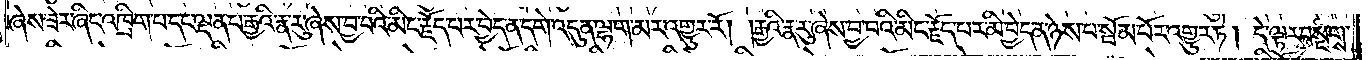ཞེས་ཟེར་ཞིང་འཁྲིག་པ་དང་ལྡན་པ་རྒྱའི་རྣ་རུ་ཞེས་བྱ་བའི་མིང་རྗོད་པར་བྱེད་ན་དགེ་འདུན་ལྷག་མར་འགྱུར་རོ། །རྒྱའི་རྣ་རུ་ཞེས་བྱ་བའི་མིང་རྗོད་པར་མི་བྱེད་ན་ཉེས་པ་སྦོམ་པོར་འགྱུར་ཏེ། དེ་ལྟར་བསྔགས་
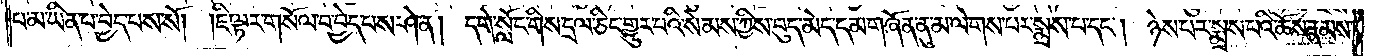པ་མ་ཡིན་པ་བྱེད་པས་སོ། །ཇི་ལྟར་གསོལ་བ་བྱེད་པས་ཤེ་ན། དགེ་སློང་གིས་དྲལ་ཅིང་གྱུར་པའི་སེམས་ཀྱིས་བུད་མེད་དམ་གཞོན་ནུ་མ་ལེགས་པར་སྨྲས་པ་དང༌། ཉེས་པར་སྨྲས་པའི་ཆོས་རྣམས་
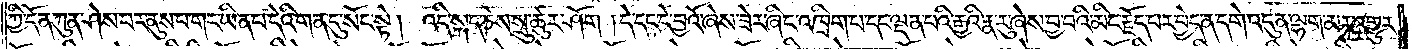ཀྱི་དོན་ཀུན་ཤེས་པར་ནུས་པ་གང་ཡིན་པ་དེའི་གན་དུ་སོང་སྟེ། འདི་སྐད་ཅེས་སྲུ་ཚུར་ཤོག །དེ་དང་དེ་བྱའོ་ཞེས་ཟེར་ཞིང་འཁྲིག་པ་དང་ལྡན་པའི་རྒྱའི་རྣ་རུ་ཞེས་བྱ་བའི་མིང་རྗོད་པར་བྱེད་ན་དགེ་འདུན་ལྷག་མར་འགྱུར་
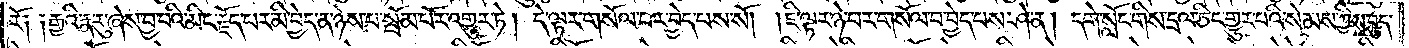རོ༑ ༑རྒྱའི་རྣ་རུ་ཞེས་བྱ་བའི་མིང་རྗོད་པར་མི་བྱེད་ན་ཉེས་པ་སྦོམ་པོར་འགྱུར་ཏེ། དེ་ལྟར་གསོལ་བར་བྱེད་པས་སོ། །ཇི་ལྟར་ཉེ་བར་གསོལ་བ་བྱེད་པས་ཤེ་ན། དགེ་སློང་གིས་དྲལ་ཅིང་གྱུར་པའི་སེམས་ཀྱིས་བུད་
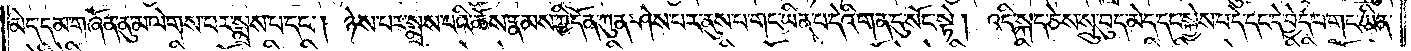མེད་དམ་གཞོན་ནུ་མ་ལེགས་པར་སྨྲས་པ་དང༌། ཉེས་པར་སྨྲས་པའི་ཆོས་རྣམས་ཀྱི་དོན་ཀུན་ཤེས་པར་ནུས་པ་གང་ཡིན་པ་དེའི་གན་དུ་སོང་སྟེ། འདི་སྐད་ཅེས་སྲུ་བུད་མེད་དང་སྐྱེས་པ་དེ་དང་དེ་བྱེད་པ་གང་ཡིན་
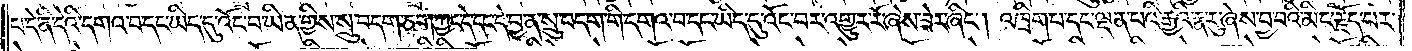པ་དེ་ནི་དེའི་དགའ་བ་དང་ཡིད་དུ་འོང་བ་ཡིན་གྱིས་སྲུ་བདག་ཅག་ཀྱང་དེ་དང་དེ་བྱ་ན་སྲུ་བདག་གི་དགའ་བ་དང་ཡིད་དུ་འོང་བར་འགྱུར་རོ་ཞེས་ཟེར་ཞིང༌། འཁྲིག་པ་དང་ལྡན་པའི་རྒྱའི་རྣ་རུ་ཞེས་བྱ་བའི་མིང་རྗོད་པར་
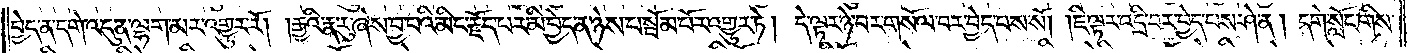བྱེད་ན་དགེ་འདུན་ལྷག་མར་འགྱུར་རོ། །རྒྱའི་རྣ་རུ་ཞེས་བྱ་བའི་མིང་རྗོད་པར་མི་བྱེད་ན་ཉེས་པ་སྦོམ་པོར་འགྱུར་ཏེ། དེ་ལྟར་ཉེ་བར་གསོལ་བར་བྱེད་པས་སོ། །ཇི་ལྟར་འདྲི་བར་བྱེད་པས་ཤེ་ན། དགེ་སློང་གིས་
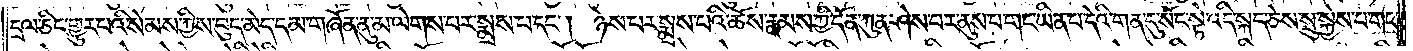དྲལ་ཅིང་གྱུར་པའི་སེམས་ཀྱིས་བུད་མེད་དམ་གཞོན་ནུ་མ་ལེགས་པར་སྨྲས་པ་དང༌། ཉེས་པར་སྨྲས་པའི་ཆོས་རྣམས་ཀྱི་དོན་ཀུན་ཤེས་པར་ནུས་པ་གང་ཡིན་པ་དེའི་གན་དུ་སོང་སྟེ་འདི་སྐད་ཅེས་སྲུ་སྐྱེས་པ་གང་
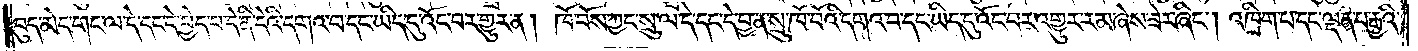བུད་མེད་གང་ལ་དེ་དང་དེ་བྱེད་པ་དེ་ནི་དེའི་དགའ་བ་དང་ཡིད་དུ་འོང་བར་གྱུར་ན། ཁོ་བོས་ཀྱང་སྲུ་ལ་དེ་དང་དེ་བྱ་ན་སྲུ་ཁོ་བོའི་དགའ་བ་དང་ཡིད་དུ་འོང་བར་འགྱུར་རམ་ཞེས་ཟེར་ཞིང༌། འཁྲིག་པ་དང་ལྡན་པ་རྒྱའི་
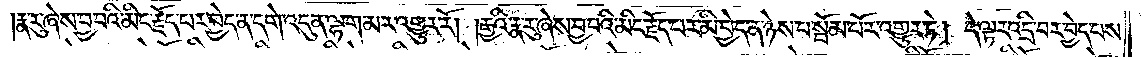།རྣ་རུ་ཞེས་བྱ་བའི་མིང་རྗོད་པར་བྱེད་ན་དགེ་འདུན་ལྷག་མར་འགྱུར་རོ། །རྒྱའི་རྣ་རུ་ཞེས་བྱ་བའི་མིང་རྗོད་པར་མི་བྱེད་ན་ཉེས་པ་སྦོམ་པོར་འགྱུར་ཏེ། དེ་ལྟར་འདྲི་བར་བྱེད་པས་
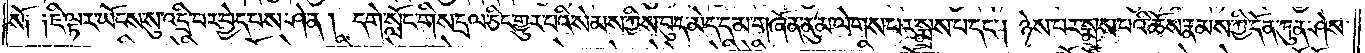སོ༑ ༑ཇི་ལྟར་ཡོངས་སུ་འདྲི་བར་བྱེད་པས་ཤེ་ན། དགེ་སློང་གིས་དྲལ་ཅིང་གྱུར་པའི་སེམས་ཀྱིས་བུད་མེད་དམ་གཞོན་ནུ་མ་ལེགས་པར་སྨྲས་པ་དང༌། ཉེས་པར་སྨྲས་པའི་ཆོས་རྣམས་ཀྱི་དོན་ཀུན་ཤེས་
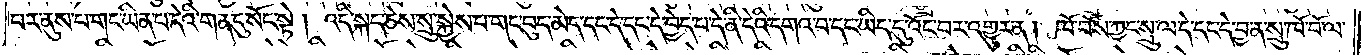པར་ནུས་པ་གང་ཡིན་པ་དེའི་གན་དུ་སོང་སྟེ། འདི་སྐད་ཅེས་སྲུ་སྐྱེས་པ་གང་བུད་མེད་དང་དེ་དང་དེ་བྱེད་པ་དེ་ནི་དེའི་དགའ་བ་དང་ཡིད་དུ་འོང་བར་འགྱུར་ན། ཁོ་བོས་ཀྱང་སྲུ་ལ་དེ་དང་དེ་བྱ་ན་སྲུ་ཁོ་བོ་ལ་
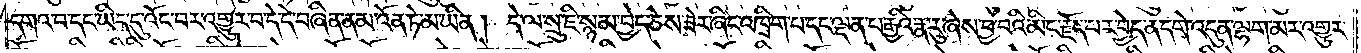དགའ་བ་དང་ཡིད་དུ་འོང་བར་འགྱུར་བ་དེ་དེ་བཞིན་ནམ་འོན་ཏེ་མ་ཡིན། དེ་ལ་སྲུ་ཇི་སྙམ་བྱེད་ཅིང་ཟེར་ཞིང་འཁྲིག་པ་དང་ལྡན་པ་རྒྱའི་རྣ་རུ་ཞེས་བྱ་བའི་མིང་རྗོད་པར་བྱེད་ན་དགེ་འདུན་ལྷག་མར་འགྱུར་
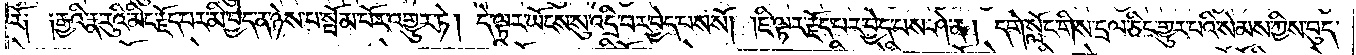རོ༑ ༑རྒྱའི་རྣ་རུའི་མིང་རྗོད་པར་མི་བྱེད་ན་ཉེས་པ་སྦོམ་པོར་འགྱུར་ཏེ། དེ་ལྟར་ཡོངས་སུ་འདྲི་བར་བྱེད་པས་སོ། །ཇི་ལྟར་རྗོད་པར་བྱེད་པས་ཤེ་ན། དགེ་སློང་གིས་དྲལ་ཅིང་གྱུར་པའི་སེམས་ཀྱིས་བུད་
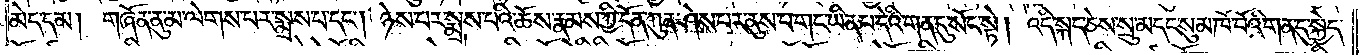མེད་དམ། གཞོན་ནུ་མ་ལེགས་པར་སྨྲས་པ་དང༌། ཉེས་པར་སྨྲས་པའི་ཆོས་རྣམས་ཀྱི་དོན་ཀུན་ཤེས་པར་ནུས་པ་གང་ཡིན་པ་དེའི་གན་དུ་སོང་སྟེ། འདི་སྐད་ཅེས་སྲུ་མ་དང་སུ་མ་ཁོ་བོའི་གན་དུ་སྐྱེད་
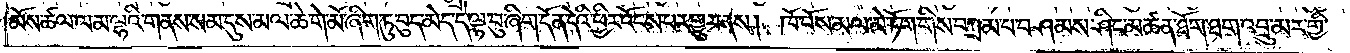མོས་ཚལ་ལམ་ལྷའི་གནས་སམ་དུས་མལ་ཆེ་གེ་མོ་ཞིག་ཏུ་བུད་མེད་དེ་ལྟ་བུ་ཞིག་དོན་དེའི་ཕྱིར་འོངས་པར་གྱུར་ནས། ཁོ་བོས་མལ་མེ་ཏོག་གིས་བཀྲམ་པ་བཤམས་ཤིང་མཚན་ཐོག་ཐག་འབྲུ་མར་གྱི་
